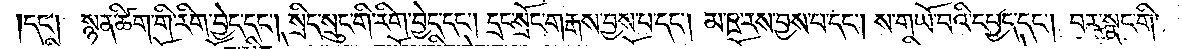དང༌། སྙན་ཚིག་གི་རིག་བྱེད་དང༌། སྲིད་སྲུང་གི་རིག་བྱེད་དང༌། དྲང་སྲོང་གརྒས་བྱས་པ་དང༌། མ་ཋ་རས་བྱས་པ་དང༌། ས་གཡོ་བའི་དཔྱད་དང༌། བར་སྣང་གི་
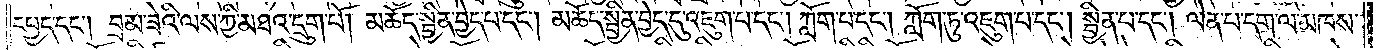དཔྱད་དང༌། བྲམ་ཟེའི་ལས་ཀྱི་མཐའ་དྲུག་པོ། མཆོད་སྦྱིན་བྱེད་པ་དང༌། མཆོད་སྦྱིན་བྱེད་དུ་འཇུག་པ་དང༌། ཀློག་པ་དང༌། ཀློག་ཏུ་འཇུག་པ་དང༌། སྦྱིན་པ་དང༌། ལེན་པ་དག་ལ་མཁས་
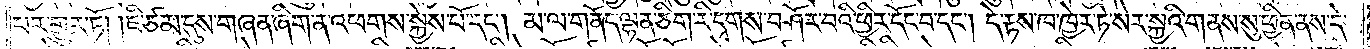པར་གྱུར་ཏོ། །ཇི་ཙམ་དུས་གཞན་ཞིག་ན་འཕགས་སྐྱེས་པོ་དང༌། མ་ལ་གནོད་ལྷན་ཅིག་རི་དྭགས་བཤོར་བའི་ཕྱིར་དོང་བ་དང༌། དེ་རྟས་ཁ་ཁྱེར་ཏེ་སེར་སྐྱའི་གནས་སུ་ཕྱིན་ནས་དེ་
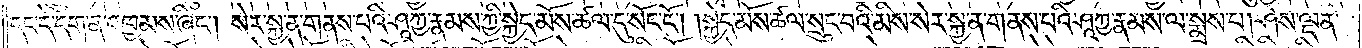དང་དེ་དག་ན་འཁྱམས་ཞིང༌། སེར་སྐྱ་ན་གནས་པའི་ཤཱཀྱ་རྣམས་ཀྱི་སྐྱེད་མོས་ཚལ་དུ་སོང་ངོ༌། །སྐྱེད་མོས་ཚལ་སྲུང་བའི་མིས་སེར་སྐྱ་ན་གནས་པའི་ཤཱཀྱ་རྣམས་ལ་སྨྲས་པ། ཤེས་ལྡན་
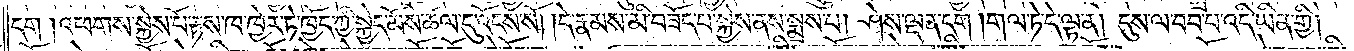དག །འཕགས་སྐྱེས་པོ་རྟས་ཁ་ཁྱེར་ཏེ་ཁྱོད་ཀྱི་སྐྱེད་མོས་ཚལ་དུ་འོངས་སོ། །དེ་རྣམས་མི་བཟོད་པ་སྐྱེས་ནས་སྨྲས་པ། ཤེས་ལྡན་དག །གལ་ཏེ་དེ་ལྟ་ན། དུས་ལ་བབ་པ་འདི་ཡིན་གྱི།
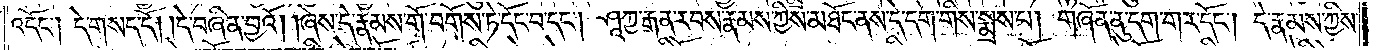འདོང༌། དེ་གསད་དོ། །དེ་བཞིན་བྱའོ། །ཞེས་དེ་རྣམས་གོ་བགོས་ཏེ་དོང་བ་དང༌། ཤཱཀྱ་རྒན་རབས་རྣམས་ཀྱིས་མཐོང་ནས་དེ་དག་གིས་སྨྲས་པ། གཞོན་ནུ་དག་གར་དོང༌། དེ་རྣམས་ཀྱིས་
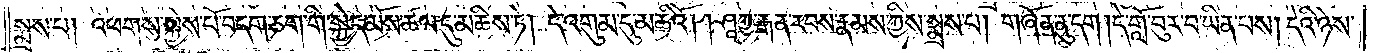སྨྲས་པ། འཕགས་སྐྱེས་པོ་བདག་ཅག་གི་སྐྱེད་མོས་ཚལ་དུ་མཆིས་ཏེ། དེ་འགུམ་དུ་མཆིའོ། །ཤཱཀྱ་རྒན་རབས་རྣམས་ཀྱིས་སྨྲས་པ། གཞོན་ནུ་དག །དེ་གློ་བུར་བ་ཡིན་པས། དེའི་ཉེས་
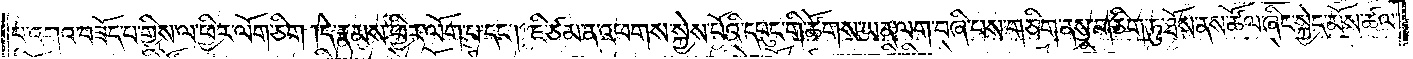པ་འགའ་བཟོད་པ་གྱིས་ལ་ཕྱིར་ལོག་ཅིག །དེ་རྣམས་ཕྱིར་ལོག་པ་དང༌། ཇི་ཙམ་ན་འཕགས་སྐྱེས་པོའི་དཔུང་གི་ཚོགས་ཡན་ལག་བཞི་པས་གཅིག་ནས་གཅིག་ཏུ་ཐོས་ནས་ཚོལ་ཞིང་སྐྱེད་མོས་ཚལ་
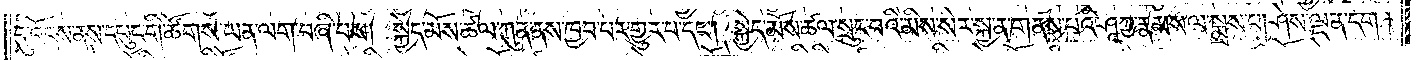དུ་འོངས་ནས་དཔུང་གི་ཚོགས་ཡན་ལག་བཞི་པས། སྐྱེད་མོས་ཚལ་ཀུན་ནས་ཁྱབ་པར་གྱུར་པ་དང༌། སྐྱེད་མོས་ཚལ་སྲུང་བའི་མིས་སེར་སྐྱ་ན་གནས་པའི་ཤཱཀྱ་རྣམས་ལ་སྨྲས་པ། ཤེས་ལྡན་དག །
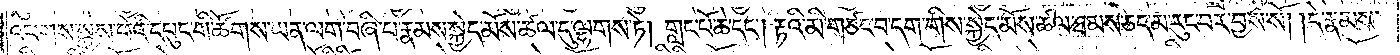འཕགས་སྐྱེས་པོའི་དཔུང་གི་ཚོགས་ཡན་ལག་བཞི་པ་རྣམས་སྐྱེད་མོས་ཚལ་དུ་ལྷགས་ཏེ། གླང་པོ་ཆེ་དང༌། རྟའི་མི་གཙང་བ་དག་གིས་སྐྱེད་མོས་ཚལ་ཐམས་ཅད་མ་རུང་བར་བྱས་སོ། །དེ་རྣམས་
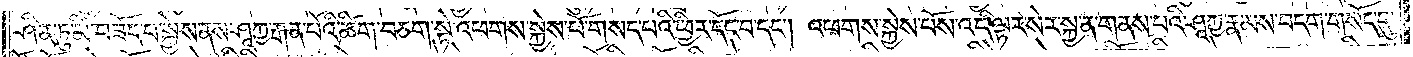ཤིན་ཏུ་མི་བཟོད་པ་སྐྱེས་ནས་ཤཱཀྱ་རྒན་པོའི་ཚིག་བཅག་སྟེ་འཕགས་སྐྱེས་པོ་གསད་པའི་ཕྱིར་དོང་བ་དང༌། འཕགས་སྐྱེས་པོས་འདི་ལྟར་སེར་སྐྱ་ན་གནས་པའི་ཤཱཀྱ་རྣམས་བདག་གསོད་དུ་
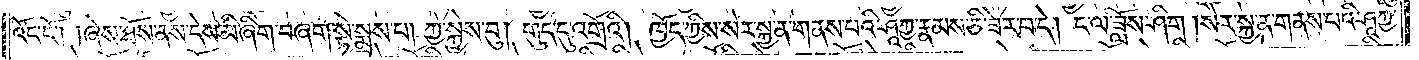འོང་ངོ༌། །ཞེས་ཐོས་ནས་དེས་མི་ཞིག་བཞག་སྟེ་སྨྲས་པ། ཀྱེ་སྐྱེས་བུ། གུད་དུ་འགྲོའི། ཁྱོད་ཀྱིས་སེར་སྐྱ་ན་གནས་པའི་ཤཱཀྱ་རྣམས་ཅི་ཟེར་བ་དེ། ང་ལ་ཟློས་ཤིག །སེར་སྐྱ་ན་གནས་པའི་ཤཱཀྱ་
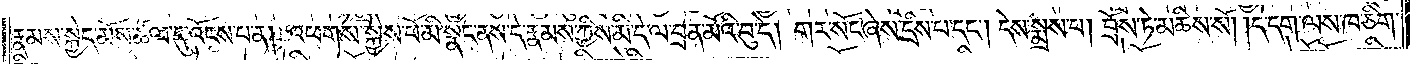རྣམས་སྐྱེད་མོས་ཚལ་དུ་འོངས་པ་ན། འཕགས་སྐྱེས་པོ་མི་སྣང་ནས་དེ་རྣམས་ཀྱིས་མི་དེ་ལ་བྲན་མོའི་བུ་དེ། གར་སོང་ཞེས་དྲིས་པ་དང༌། དེས་སྨྲས་པ། བྲོས་ཏེ་མཆིས་སོ། །དེ་དག་ལས་ཁ་ཅིག་
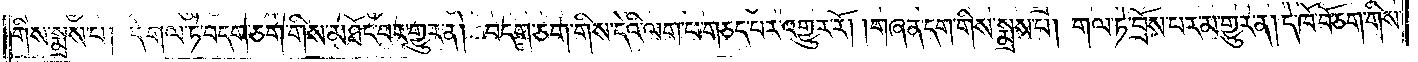གིས་སྨྲས་པ། དེ་གལ་ཏེ་བདག་ཅག་གིས་མཐོང་བར་གྱུར་ན། བདག་ཅག་གིས་དེའི་ལག་པ་གཅད་པར་འགྱུར་རོ། །གཞན་དག་གིས་སྨྲས་པ། གལ་ཏེ་བྲོས་པར་མ་གྱུར་ན། དེ་ཁོ་བོ་ཅག་གིས་
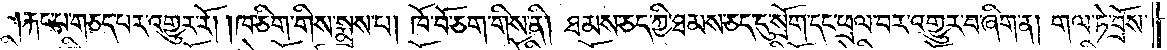རྐང་པ་གཅད་པར་འགྱུར་རོ། །ཁ་ཅིག་གིས་སྨྲས་པ། ཁོ་བོ་ཅག་གིས་ནི། ཐམས་ཅད་ཀྱི་ཐམས་ཅད་དུ་སྲོག་དང་ཕྲལ་བར་འགྱུར་བ་ཞིག་ན། གལ་ཏེ་བྲོས་
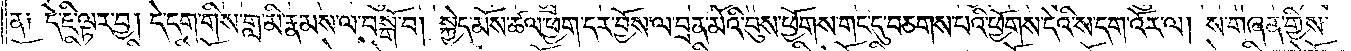ན། དེ་ཇི་ལྟར་བྱ། དེ་དག་གིས་གླ་མི་རྣམས་ལ་བསྒོ་བ། སྐྱེད་མོས་ཚལ་ཕྱག་དར་བྱོས་ལ་བྲན་མོའི་བུས་ཕྱོགས་གང་དུ་བཅགས་པའི་ཕྱོགས་དེའི་ས་དག་འོ་ར་ལ། ས་གཞན་གྱིས་
